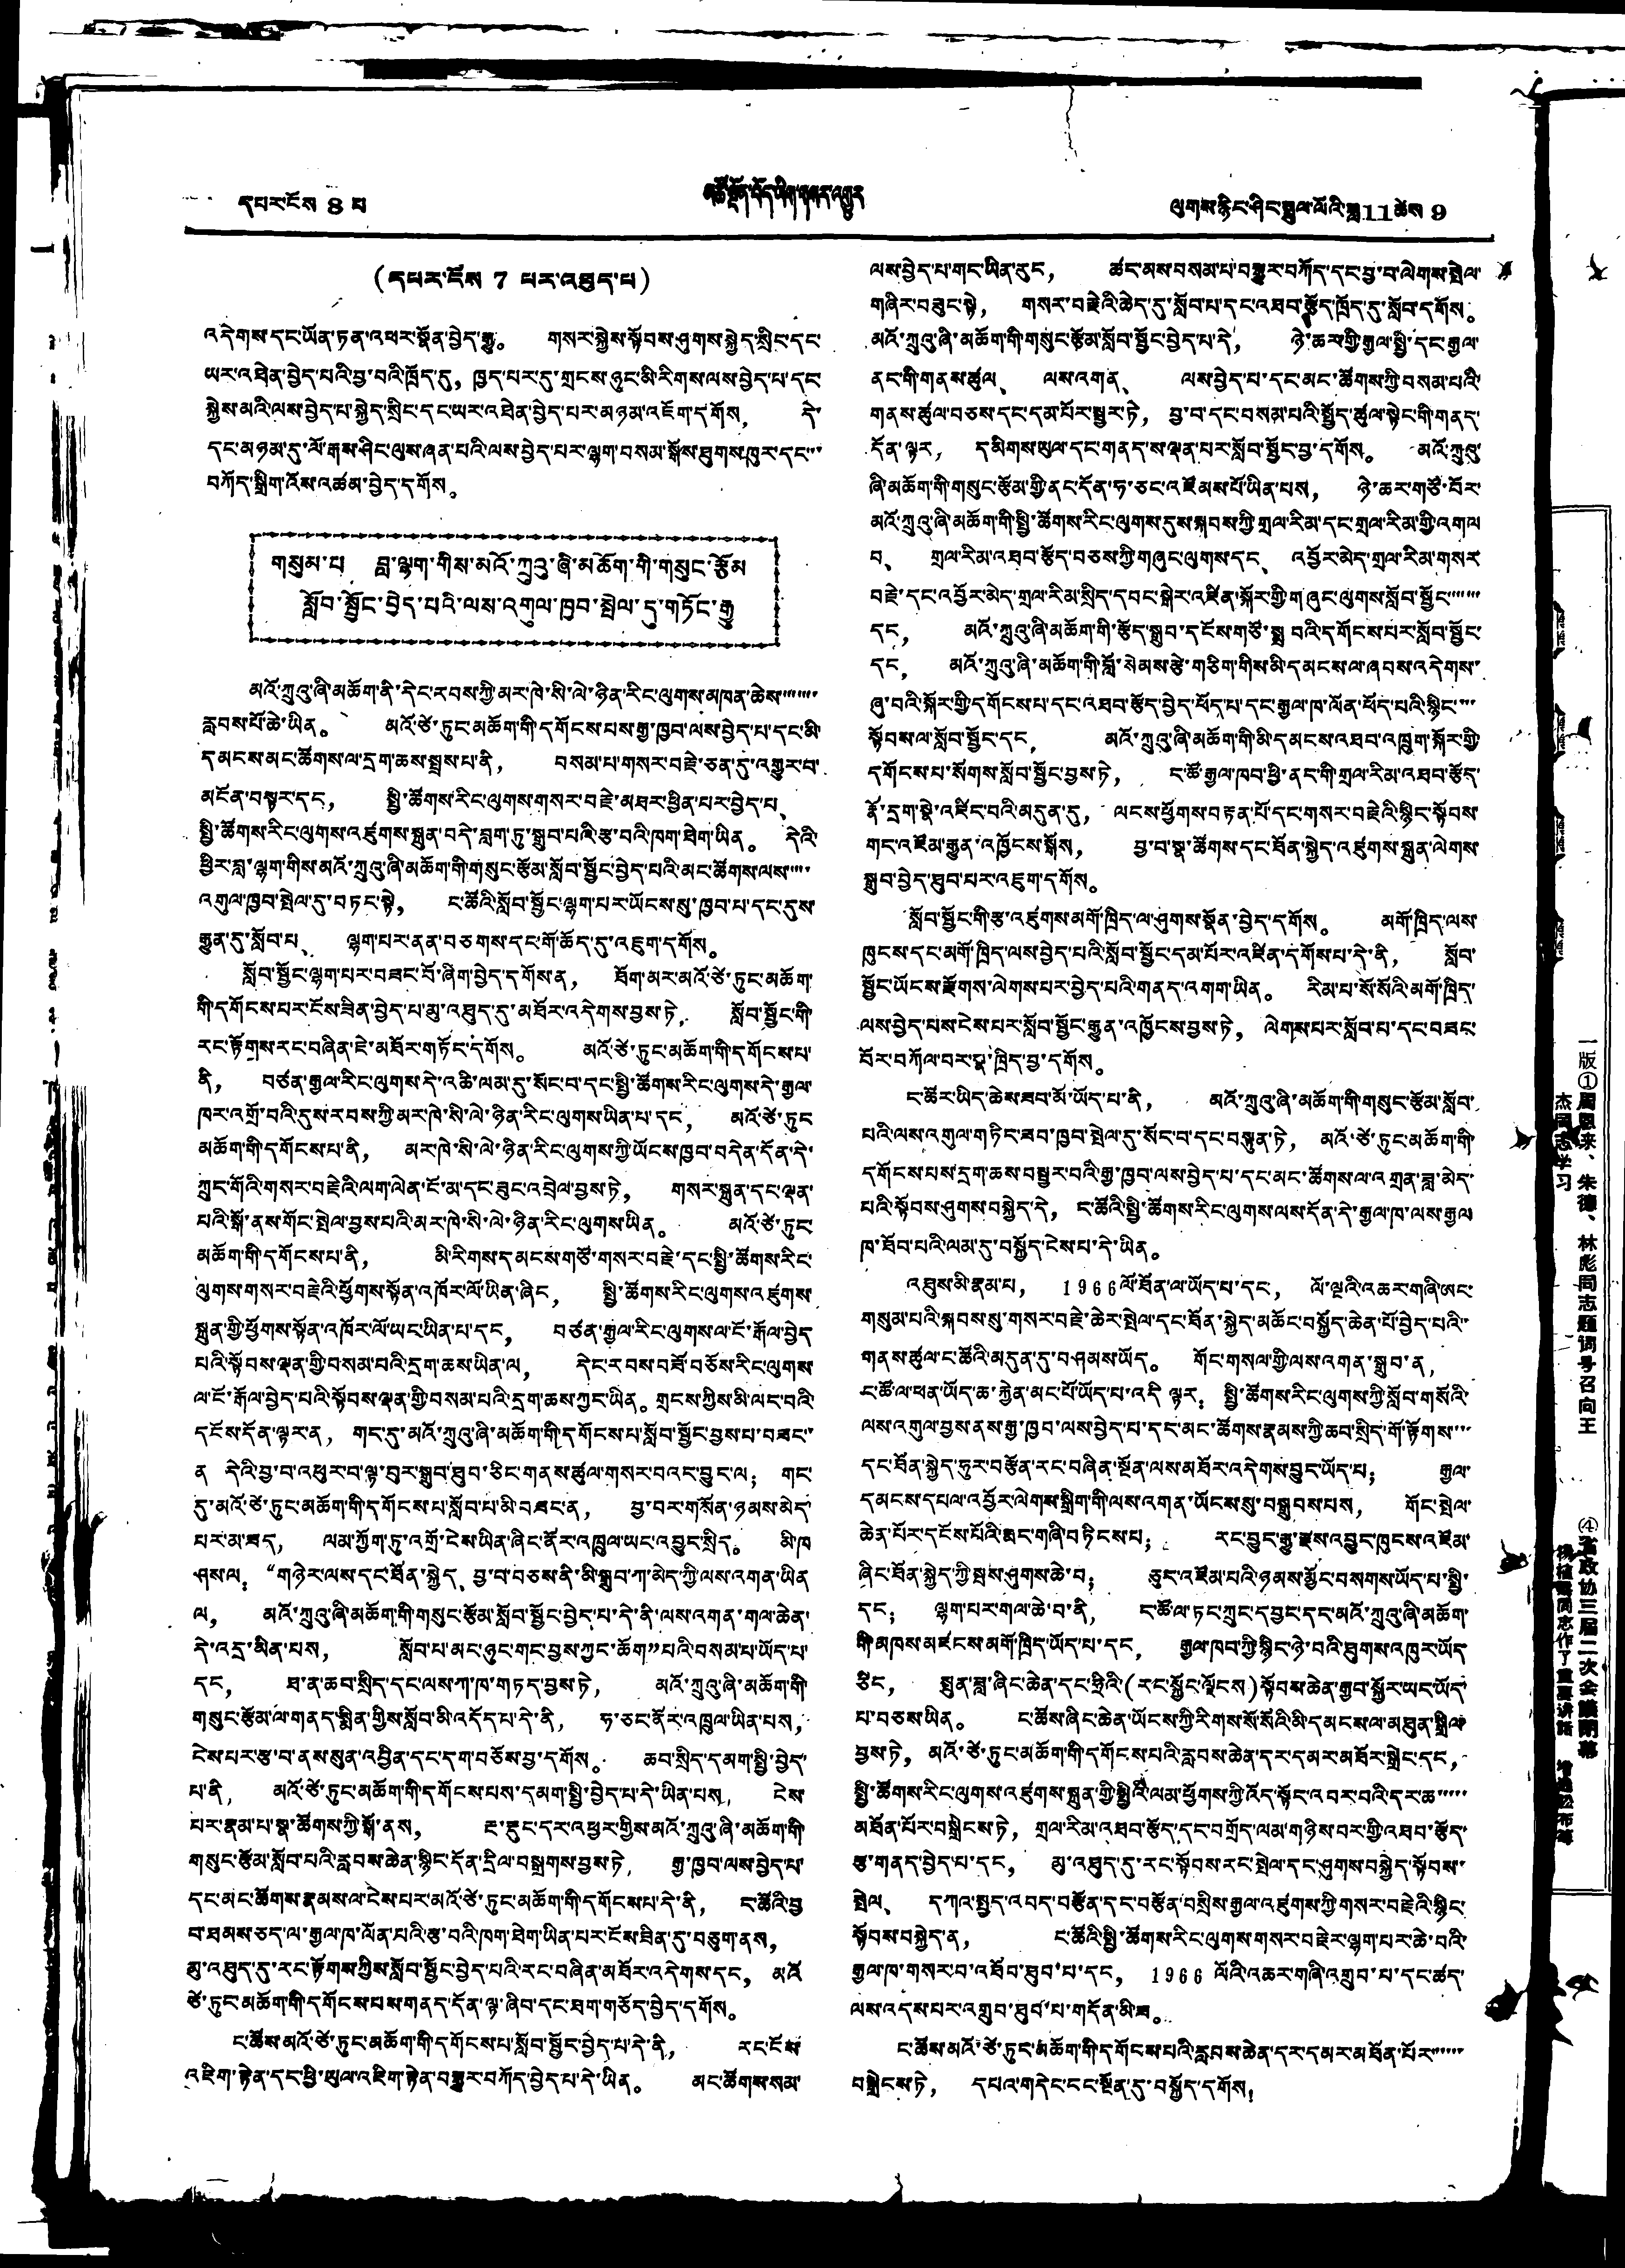དཔར་ངོས 8 པ མཚོ་སྔོན་བོད་ཡིག་གསར་འགྱུར ལུགས་རྙིང་ཤིང་སྦྲུལ་ལོའི་ཟླ 11 ཚེས 9
(དཔར་ངོས 7 པར་འཐུད་པ)
འདེགས་དང་ཡོན་ཏན་འཕར་སྣོན་བྱེད་རྒྱུ。 གསར་སྐྱེས་སྟོབས་ཤུགས་སྐྱེད་སྲིང་དང་
ཡར་འཐེན་བྱེད་པའི་བྱ་བའི་ཁྲོད་དུ，ཁྱད་པར་དུ་གྲངས་ཉུང་མི་རིགས་ལས་བྱེད་པ་དང་
སྐྱེས་མའི་ལས་བྱེད་པ་སྐྱེད་སྲིང་དང་ཡར་འཐེན་བྱེད་པར་མཉམ་འཇོག་དགོས， དེ་
དང་མཉམ་དུ་ལོ་རྒུས་ཤིང་ལུས་ཞན་པའི་ལས་བྱེད་པར་ལྷག་བསམ་སྒོས་ཐུགས་ཁུར་དང་་་
བཀོད་སྒྲིག་འོས་འཚམ་བྱེད་དགོས。
གསུམ་པ、 བླ་ལྷག་གིས་མའོ་ཀྲུའུ་ཞི་མཆོག་གི་གསུང་རྩོམ
སློབ་སྦྱོང་བྱེད་པའི་ལས་འགུལ་ཁྱབ་སྤེལ་དུ་གཏོང་རྒྱུ
མའོ་ཀྲུའུ་ཞི་མཆོག་ནི་དེང་རབས་ཀྱི་མར་ཁེ་སི་ལེ་ཉིན་རིང་ལུགས་མཁན་ཆེས་་་་་་་
རླབས་པོ་ཆེ་ཡིན。 མའོ་ཙེ་ཏུང་མཆོག་གི་དགོངས་པས་རྒྱ་ཁྱབ་ལས་བྱེད་པ་དང་མི་
དམངས་མང་ཚོགས་ལ་དྲག་ཆས་སྤྲས་པ་ནི， བསམ་པ་གསར་བརྗེ་ཅན་དུ་འགྱུར་བ་
མངོན་བསྟར་དང， སྤྱི་ཚོགས་རིང་ལུགས་གསར་བརྗེ་མཐར་ཕྱིན་པར་བྱེད་པ、
སྤྱི་ཚོགས་རིང་ལུགས་འཛུགས་སྐྲུན་བདེ་བླག་ཏུ་སྒྲུབ་པའི་རྩ་བའི་ཁག་ཐེག་ཡིན。 དེའི་
ཕྱིར་བླ་ལྷག་གིས་མའོ་ཀྲུའུ་ཞི་མཆོག་གི་གསུང་རྩོམ་སློབ་སྦྱོང་བྱེད་པའི་མང་ཚོགས་ལས་་་་་
འགུལ་ཁྱབ་སྤེལ་དུ་བཏང་སྟེ， ང་ཚོའི་སློབ་སྦྱོང་ལྷག་པར་ཡོངས་སུ་ཁྱབ་པ་དང་དུས་
རྒྱུན་དུ་སློབ་པ、 ལྷག་པར་ནན་བཅགས་དང་གོ་ཆོད་དུ་འཇུག་དགོས。
སློབ་སྦྱོང་ལྷག་པར་བཟང་བོ་ཞིག་བྱེད་དགོས་ན， ཐོག་མར་མའོ་ཙེ་ཏུང་མཆོག་
གི་དགོངས་པར་ངོས་ཟིན་བྱེད་པ་མུ་འཐུད་དུ་མཐོར་འདེགས་བྱས་ཏེ， སློབ་སྦྱོང་གི་
རང་རྟོགས་རང་བཞིན་ཇེ་མཐོར་གཏོང་དགོས。 མའོ་ཙེ་ཏུང་མཆོག་གི་དགོངས་པ་
ནི， བཙན་རྒྱལ་རིང་ལུགས་དེ་འཆི་ལམ་དུ་སོང་བ་དང་སྤྱི་ཚོགས་རིང་ལུགས་དེ་རྒྱལ་
ཁར་འགྲོ་བའི་དུས་རབས་ཀྱི་མར་ཁེ་སི་ལེ་ཉིན་རིང་ལུགས་ཡིན་པ་དང， མའོ་ཙེ་ཏུང་
མཆོག་གི་དགོངས་པ་ནི， མར་ཁེ་སི་ལེ་ཉིན་རིང་ལུགས་ཀྱི་ཡོངས་ཁྱབ་བདེན་དོན་དེ་
ཀྲུང་གོའི་གསར་བརྗེའི་ལག་ལེན་ངོ་མ་དང་ཟུང་འབྲེལ་བྱས་ཏེ， གསར་སྐྲུན་དང་ལྡན་
པའི་སྒོ་ནས་གོང་སྤེལ་བྱས་པའི་མར་ཁེ་སི་ལེ་ཉིན་རིང་ལུགས་ཡིན。 མའོ་ཙེ་ཏུང་
མཆོག་གི་དགོངས་པ་ནི， མི་རིགས་དམངས་གཙོ་གསར་བརྗེ་དང་སྤྱི་ཚོགས་རིང་
ལུགས་གསར་བརྗེའི་ཕྱོགས་སྟོན་འཁོར་ལོ་ཡིན་ཞིང， སྤྱི་ཚོགས་རིང་ལུགས་འཛུགས་
སྐྲུན་གྱི་ཕྱོགས་སྟོན་འཁོར་ལོ་ཡང་ཡིན་པ་དང， བཙན་རྒྱལ་རིང་ལུགས་ལ་ངོ་རྒོལ་བྱེད་
པའི་སྟོབས་ལྡན་གྱི་བསམ་པའི་དྲག་ཆས་ཡིན་ལ， དེང་རབས་བཟོ་བཅོས་རིང་ལུགས་
ལ་ངོ་རྒོལ་བྱེད་པའི་སྟོབས་ལྡན་གྱི་བསམ་པའི་དྲག་ཆས་ཀྱང་ཡིན。གྲངས་ཀྱིས་མི་ལང་བའི་
དངོས་དོན་ལྟར་ན， གང་དུ་མའོ་ཀྲུའུ་ཞི་མཆོག་གི་དགོངས་པ་སློབ་སྦྱོང་བྱས་པ་བཟང་་
ན དེའི་བྱ་བ་འཕུར་བ་ལྟ་བུར་སྒྲུབ་ཐུབ་ཅིང་གནས་ཚུལ་གསར་བའང་བྱུང་ལ； གང་
དུ་མའོ་ཙེ་ཏུང་མཆོག་གི་དགོངས་པ་སློབ་པ་མི་བཟང་ན， བྱ་བར་གསོན་ཉམས་མེད་
པར་མ་ཟད， ལམ་ཀྱོག་ཏུ་འགྲོ་ངེས་ཡིན་ཞིང་ནོར་འཁྲུལ་ཡང་འབྱུང་སྲིད。 མི་ཁ་
ཤས་ལ：“གཉེར་ལས་དང་ཐོན་སྐྱེད、བྱ་བ་བཅས་ནི་མི་སྒྲུབ་ཀ་མེད་ཀྱི་ལས་འགན་ཡིན།
ལ， མའོ་ཀྲུའུ་ཞི་མཆོག་གི་གསུང་རྩོམ་སློབ་སྦྱོང་བྱེད་པ་དེ་ནི་ལས་འགན་གལ་ཆེན་
དེ་འདྲ་མིན་པས， སློབ་པ་མང་ཉུང་གང་བྱས་ཀྱང་ཆོག་པའི་བསམ་པ་ཡོད་པ་
དང， ཐ་ན་ཆབ་སྲིད་དང་ལས་ཀ་ཁ་གཏད་བྱས་ཏེ， མའོ་ཀྲུའུ་ཞི་མཆོག་གི་
གསུང་རྩོམ་ལ་གནད་སྨིན་གྱིས་སློབ་མི་འདོད་པ་དེ་ནི， ཧ་ཅང་ནོར་འཁྲུལ་ཡིན་པས，
ངེས་པར་རྩ་བ་ནས་སུན་འབྱིན་དང་དག་བཅོས་བྱ་དགོས。 ཆབ་སྲིད་དམག་སྤྱི་བྱེད་
པ་ནི， མའོ་ཙེ་ཏུང་མཆོག་གི་དགོངས་པས་དམག་སྤྱི་བྱེད་པ་དེ་ཡིན་པས， ངེས་
པར་རྣམ་པ་སྣ་ཚོགས་ཀྱི་སྒོ་ནས， རྔ་རྡུང་དར་འཕྱར་གྱིས་མའོ་ཀྲུའུ་ཞི་མཆོག་གི་
གསུང་རྩོམ་སློབ་པའི་རླབས་ཆེན་སྙིང་དོན་དྲིལ་བསྒྲགས་བྱས་ཏེ， རྒྱ་ཁྱབ་ལས་བྱེད་པ་
དང་མང་ཚོགས་རྣམས་ལ་ངེས་པར་མའོ་ཙེ་ཏུང་མཆོག་གི་དགོངས་པ་དེ་ནི， ང་ཚོའི་བྱ་
བ་ཐམས་ཅད་ལ་རྒྱལ་ཁ་ལོན་པའི་རྩ་བའི་ཁག་ཐེག་ཡིན་པར་ངོས་ཟིན་དུ་བཅུག་ནས，
མུ་འཐུད་དུ་རང་རྟོགས་ཀྱིས་སློབ་སྦྱོང་བྱེད་པའི་རང་བཞིན་མཐོར་འདེགས་དང， མའོ་
ཙེ་ཏུང་མཆོག་གི་དགོངས་པས་གནད་དོན་ལྟ་ཞིབ་དང་ཐག་གཅོད་བྱེད་དགོས。
ང་ཚོས་མའོ་ཙེ་ཏུང་མཆོག་གི་དགོངས་པ་སློབ་སྦྱོང་བྱེད་པ་དེ་ནི， རང་ངོས་
འཇིག་རྟེན་དང་ཕྱི་ཡུལ་འཇིག་རྟེན་བསྒྱུར་བཀོད་བྱེད་པ་དེ་ཡིན。 མང་ཚོགས་སམ་
ལས་བྱེད་པ་གང་ཡིན་རུང， ཚང་མས་བསམ་པ་བསྒྱུར་བཀོད་དང་བྱ་བ་ལེགས་སྤེལ་
གཞིར་བཟུང་སྟེ， གསར་བརྗེའི་ཆེད་དུ་སློབ་པ་དང་འཐབ་རྩོད་ཁྲོད་དུ་སློབ་དགོས。
མའོ་ཀྲུའུ་ཞི་མཆོག་གི་གསུང་རྩོམ་སློབ་སྦྱོང་བྱེད་པ་དེ， ཉེ་ཆར་གྱི་རྒྱལ་སྤྱི་དང་རྒྱལ་
ནང་གི་གནས་ཚུལ、 ལས་འགན、 ལས་བྱེད་པ་དང་མང་ཚོགས་ཀྱི་བསམ་པའི་
གནས་ཚུལ་བཅས་དང་དམ་པོར་སྦྱར་ཏེ， བྱ་བ་དང་བསམ་པའི་སྤྱོད་ཚུལ་སྟེང་གི་གནད་
དོན་ལྟར， དམིགས་ཡུལ་དང་གནད་ས་ལྡན་པར་སློབ་སྦྱོང་བྱ་དགོས。 མའོ་ཀྲུའུ་
ཞི་མཆོག་གི་གསུང་རྩོམ་གྱི་ནང་དོན་ཧ་ཅང་འཛོམས་པོ་ཡིན་པས， ཉེ་ཆར་གཙོ་བོར་
མའོ་ཀྲུའུ་ཞི་མཆོག་གི་སྤྱི་ཚོགས་རིང་ལུགས་དུས་སྐབས་ཀྱི་གྲལ་རིམ་དང་གྲལ་རིམ་གྱི་འགུལ
བ、 གྲལ་རིམ་འཐབ་རྩོད་བཅས་ཀྱི་གཞུང་ལུགས་དང、 འབྱོར་མེད་གྲལ་རིམ་གསར
བརྗེ་དང་འབྱོར་མེད་གྲལ་རིམ་སྲིད་དབང་སྒེར་འཛིན་སྐོར་གྱི་གཞུང་ལུགས་སློབ་སྦྱོང་་་་་་་
དང， མའོ་ཀྲུའུ་ཞི་མཆོག་གི་རྩོད་སྒྲུབ་དངོས་གཙོ་སྨྲ བའི་དགོངས་པར་སློབ་སྦྱོང་
དང， མའོ་ཀྲུའུ་ཞི་མཆོག་གི་བློ་སེམས་རྩེ་གཅིག་གིས་མི་དམངས་ལ་ཞབས་འདེགས་
ཞུ་བའི་སྐོར་གྱི་དགོངས་པ་དང་འཐབ་རྩོད་བྱེད་ཕོད་པ་དང་རྒྱལ་ཁ་ལོན་ཕོད་པའི་སྙིང་་་་
སྟོབས་ལ་སློབ་སྦྱོང་དང， མའོ་ཀྲུའུ་ཞི་མཆོག་གི་མི་དམངས་འཐབ་འཁྲུག་སྐོར་གྱི་
དགོངས་པ་སོགས་སློབ་སྦྱོང་བྱས་ཏེ， ང་ཚོ་རྒྱལ་ཁབ་ཕྱི་ནང་གི་གྲལ་རིམ་འཐབ་རྩོད་
རྣོ་དྲུག་སྣེ་འཛིང་བའི་མདུན་དུ， ལངས་ཕྱོགས་བརྟན་པོ་དང་གསར་བརྗེའི་སྙིང་སྟོབས་
གང་འཛོམ་རྒྱུན་འཁྱོངས་སྒོས， བྱ་བ་སྣ་ཚོགས་དང་ཐོན་སྐྱེད་འཛུགས་སྐྲུན་ལེགས་
སྒྲུབ་བྱེད་ཐུབ་པར་འཇུག་དགོས。
སློབ་སྦྱོང་གི་རྩ་འཛུགས་མགོ་ཁྲིད་ལ་ཤུགས་སྣོན་བྱེད་དགོས。 མགོ་ཁྲིད་ལས་
ཁུངས་དང་མགོ་ཁྲིད་ལས་བྱེད་པའི་སློབ་སྦྱོང་དམ་པོར་འཛིན་དགོས་པ་དེ་ནི， སློབ་
སྦྱོང་ཡོངས་རྫོགས་ལེགས་པར་བྱེད་པའི་གནད་འགག་ཡིན。 རིམ་པ་སོ་སོའི་མགོ་ཁྲིད་
ལས་བྱེད་པས་ངེས་པར་སློབ་སྦྱོང་རྒྱུན་འཁྱོངས་བྱས་ཏེ， ལེགས་པར་སློབ་པ་དང་བཟང་
བོར་བཀོལ་བར་སྣ་ཁྲིད་བྱ་དགོས。
ང་ཚོར་ཡིད་ཆེས་ཟབ་མོ་ཡོད་པ་ནི， མའོ་ཀྲུའུ་ཞི་མཆོག་གི་གསུང་རྩོམ་སློབ་
པའི་ལས་འགུལ་གཏིང་ཟབ་ཁྱབ་སྤེལ་དུ་སོང་བ་དང་བསྟུན་ཏེ， མའོ་ཙེ་ཏུང་མཆོག་གི་
དགོངས་པས་དྲག་ཆས་བསྦྱུར་བའི་རྒྱ་ཁྱབ་ལས་བྱེད་པ་དང་མང་ཚོགས་ལ་འགྲན་ཟླ་མེད་
པའི་སྟོབས་ཤུགས་བསྐྱེད་དེ， ང་ཚོའི་སྤྱི་ཚོགས་རིང་ལུགས་ལས་དོན་དེ་རྒྱལ་ཁ་ལས་རྒྱལ་
ཁ་ཐོབ་པའི་ལམ་དུ་བསྐྱོད་ངེས་པ་དེ་ཡིན。
འཐུས་མི་རྣམ་པ， 1966 ལོ་ཐོན་ལ་ཡོད་པ་དང， ལོ་ལྔའི་འཆར་གཞི་ཨང་
གསུམ་པའི་སྐབས་སུ་གསར་བརྗེ་ཆེར་སྤེལ་དང་ཐོན་སྐྱེད་མཆོང་བསྐྱོད་ཆེན་པོ་བྱེད་པའི་་
གནས་ཚུལ་ང་ཚོའི་མདུན་དུ་བཤམས་ཡོད。 གོང་གསལ་གྱི་ལས་འགན་སྒྲུབ་ན，
ང་ཚོ་ལ་ཕན་ཡོད་ཆ་རྐྱེན་མང་པོ་ཡོད་པ་འདི ལྟར： སྤྱི་ཚོགས་རིང་ལུགས་ཀྱི་སློབ་གསོའི་
ལས་འགུལ་བྱས་ནས་རྒྱ་ཁྱབ་ལས་བྱེད་པ་དང་མང་ཚོགས་རྣམས་ཀྱི་ཆབ་སྲིད་གོ་རྟོགས་་་་
དང་ཐོན་སྐྱེད་ཧུར་བརྩོན་རང་བཞིན་སྔོན་ལས་མཐོར་འདེགས་བྱུང་ཡོད་པ； རྒྱལ་
དམངས་དཔལ་འབྱོར་ལེགས་སྒྲིག་གི་ལས་འགན་ཡོངས་སུ་བསྒྲུབས་པས， གོང་སྤེལ་
ཆེན་པོར་དངོས་པོའི་རྨང་གཞི་བཏིངས་པ； རང་བྱུང་རྒྱུ་རྫས་འབྱུང་ཁུངས་འཛོམ་
ཞིང་ཐོན་སྐྱེད་ཀྱི་སྦས་ཤུགས་ཆེ་བ； ཅུར་འཛོམ་པའི་ཉམས་མྱོང་བསགས་ཡོད་པ་སྤྱི་
དང； ལྷག་པར་གལ་ཆེ་བ་ནི， ང་ཚོ་ལ་ཏང་ཀྲུང་དབྱང་དང་མའོ་ཀྲུའུ་ཞི་མཆོག་
གི་མཁས་མཛངས་མགོ་ཁྲིད་ཡོད་པ་དང， རྒྱལ་ཁབ་ཀྱི་སྙིང་ཉེ་བའི་ཐུགས་འཁུར་ཡོད་
ཅིང， སྤུན་ཟླ་ཞིང་ཆེན་དང་ཧྲིའི་(རང་སྐྱོང་ལྗོངས)སྟོབས་ཆེན་རྒྱབ་སྐྱོར་ཡང་ཡོད་
པ་བཅས་ཡིན。 ང་ཚོས་ཞིང་ཆེན་ཡོངས་ཀྱི་རིགས་སོ་སོའི་མི་དམངས་ལ་མཐུན་སྒྲིལ་
བྱས་ཏེ， མའོ་ཙེ་ཏུང་མཆོག་གི་དགོངས་པའི་རླབས་ཆེན་དར་དམར་མཐོར་སྒྲེང་དང་
སྤྱི་ཚོགས་རིང་ལུགས་འཛུགས་སྐྲུན་གྱི་སྤྱིའི་ལམ་ཕྱོགས་ཀྱི་འོད་སྟོང་འབར་བའི་དར་ཆ་་་་་་
མཐོན་པོར་བསྒྲིངས་ཏེ， གྲལ་རིམ་འཐབ་རྩོད་དང་བགྲོད་ལམ་གཉིས་བར་གྱི་འཐབ་རྩོད་
རྩ་གནད་བྱེད་པ་དང， མུ་འཐུད་དུ་རང་སྟོབས་རང་སྤེལ་དང་ཤུགས་བསྐྱེད་སྟོབས་
སྤེལ、 དཀའ་སྤྱད་འབད་བརྩོན་དང་བརྩོན་བསྲིས་རྒྱལ་འཛུགས་ཀྱི་གསར་བརྗེའི་སྙིང་
སྟོབས་བསྐྱེད་ན， ང་ཚོའི་སྤྱི་ཚོགས་རིང་ལུགས་གསར་བརྗེར་ལྷག་པར་ཆེ་བའི་
རྒྱལ་ཁ་གསར་བ་འཐོབ་ཐུབ་པ་དང， 1966 ལོའི་འཆར་གཞི་འགྲུབ་པ་དང་ཚད་
ལས་འདས་པར་འགྲུབ་ཐུབ་པ་གདོན་མི་ཟ。
ང་ཚོས་མའོ་ཙེ་ཏུང་མཆོག་གི་དགོངས་པའི་རླབས་ཆེན་དར་དམར་མཐོན་པོར་་་་་་
བསྒྲེངས་ཏེ， དཔའ་གདེང་ངང་སྔོན་དུ་བསྐྱོད་དགོས！
一版①周恩来、朱德、林彪同志題词号召向王
杰同志学习
④省政协三届二次会議閉幕
楊植霖同志作了重要讲话 增选松布等
